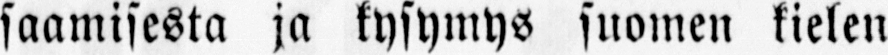saamisesta ja kysymys suomen kielen
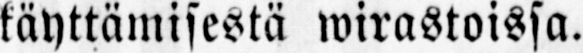käyttämisestä wirastoissa.
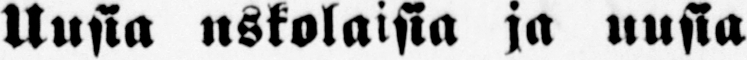— Uusia uskolaisia ja uusia
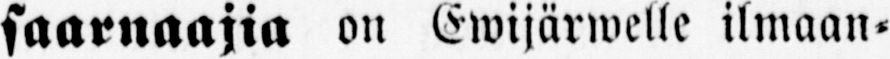saarnaajia on Ewijärwelle ilmaan-
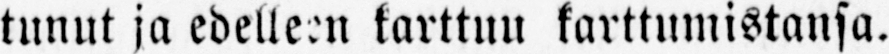tunut ja edelleen karttuu karttumistansa.
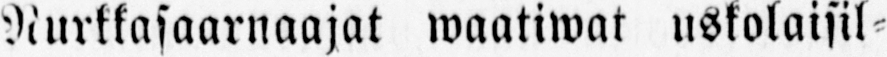Nurkkasaarnaajat waatiwat uskolaisil-
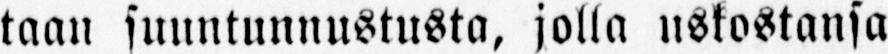taan suuntunnustusta, jolla uskostansa
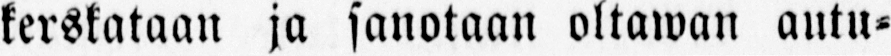kerskataan ja sanotaan oltawan autu-
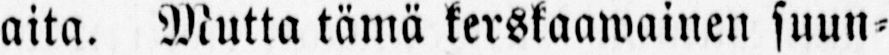aita. Mutta tämä kerskaawainen suun-
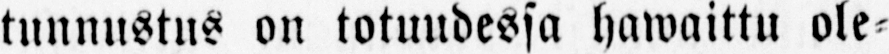tunnustus on totuudessa hawaittu ole-
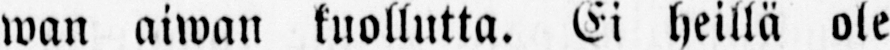wan aiwan kuollutta. Ei heillä ole
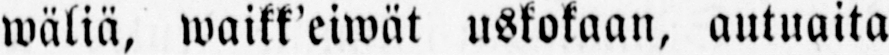wäliä, waikk’eiwät uskokaan, autuaita
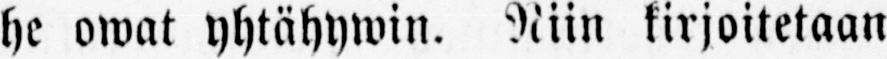he owat yhtähywin. Niin kirjoitetaan
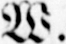W. L:delle.
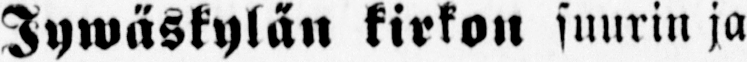— Jywäskylän kirkon suurin ja
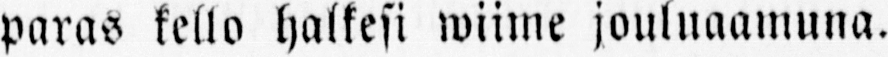paras kello halkesi wiime jouluaamuna.
